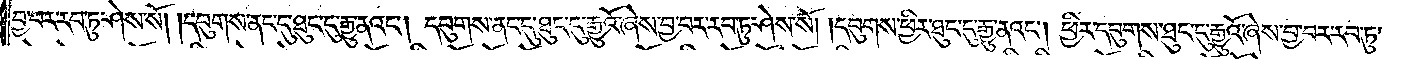བྱ་བར་རབ་ཏུ་ཤེས་སོ། །དབུགས་ནང་དུ་ཐུང་ངུ་རྒྱུ་ནའང༌། དབུགས་ནང་དུ་ཐུང་ངུ་རྒྱུའོ་ཞེས་བྱ་བར་རབ་ཏུ་ཤེས་སོ། །དབུགས་ཕྱིར་ཐུང་ངུ་རྒྱུ་ནའང༌། ཕྱིར་དབུགས་ཐུང་ངུ་རྒྱུའོ་ཞེས་བྱ་བར་རབ་ཏུ་
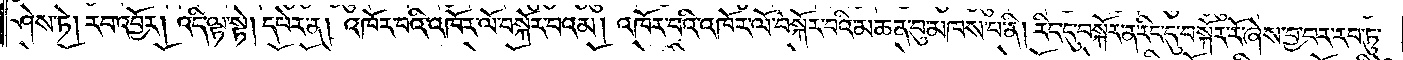ཤེས་ཏེ། རབ་འབྱོར། འདི་ལྟ་སྟེ། དཔེར་ན། འཁོར་བའི་འཁོར་ལོ་བསྐོར་བའམ། འཁོར་བའི་འཁོར་ལོ་བསྐོར་བའི་མཆན་བུ་མཁས་པ་ནི། རིང་དུ་བསྐོར་ན་རིང་དུ་བསྐོར་རོ་ཞེས་བྱ་བར་རབ་ཏུ་
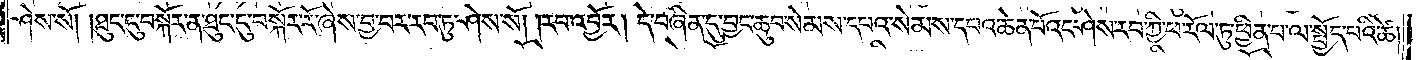ཤེས་སོ། །ཐུང་ངུ་བསྐོར་ན་ཐུང་ངུ་བསྐོར་རོ་ཞེས་བྱ་བར་རབ་ཏུ་ཤེས་སོ། །རབ་འབྱོར། དེ་བཞིན་དུ་བྱང་ཆུབ་སེམས་དཔའ་སེམས་དཔའ་ཆེན་པོའང་ཤེས་རབ་ཀྱི་ཕ་རོལ་ཏུ་ཕྱིན་པ་ལ་སྤྱོད་པའི་ཚེ།
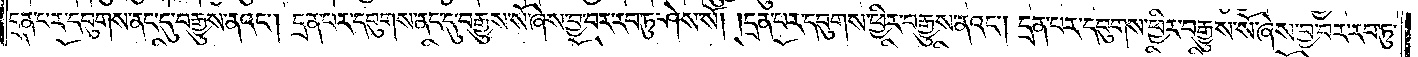དྲན་པར་དབུགས་ནང་དུ་བརྒྱུས་ནའང༌། དྲན་པར་དབུགས་ནང་དུ་བརྒྱུས་སོ་ཞེས་བྱ་བར་རབ་ཏུ་ཤེས་སོ། །དྲན་པར་དབུགས་ཕྱིར་བརྒྱུས་ནའང༌། དྲན་པར་དབུགས་ཕྱིར་བརྒྱུས་སོ་ཞེས་བྱ་བར་རབ་ཏུ་
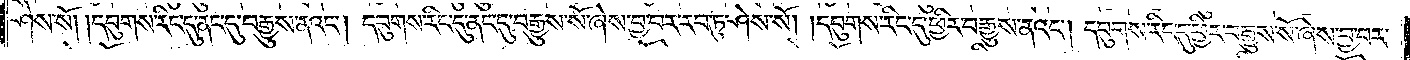ཤེས་སོ། །དབུགས་རིང་དུ་ནང་དུ་བརྒྱུས་ནའང༌། དབུགས་རིང་དུ་ནང་དུ་བརྒྱུས་སོ་ཞེས་བྱ་བར་རབ་ཏུ་ཤེས་སོ། །དབུགས་རིང་དུ་ཕྱིར་བརྒྱུས་ནའང༌། དབུགས་རིང་དུ་ཕྱིར་བརྒྱུས་སོ་ཞེས་བྱ་བར་
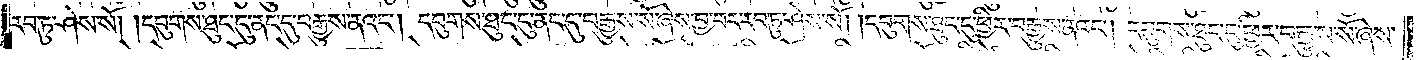རབ་ཏུ་ཤེས་སོ། །དབུགས་ཐུང་ངུ་ནང་དུ་བརྒྱུས་ནའང༌། དབུགས་ཐུང་ངུ་ནང་དུ་བརྒྱུས་སོ་ཞེས་བྱ་བར་རབ་ཏུ་ཤེས་སོ། །དབུགས་ཐུང་ངུ་ཕྱིར་བརྒྱུས་ནའང༌། དབུགས་ཐུང་ངུ་ཕྱིར་བརྒྱུས་སོ་ཞེས་
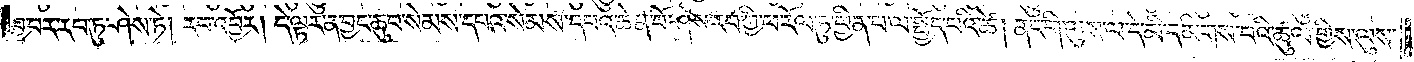བྱ་བར་རབ་ཏུ་ཤེས་ཏེ། རབ་འབྱོར། དེ་ལྟར་ན། བྱང་ཆུབ་སེམས་དཔའ་སེམས་དཔའ་ཆེན་པོ་ཤེས་རབ་ཀྱི་ཕ་རོལ་ཏུ་ཕྱིན་པ་ལ་སྤྱོད་པའི་ཚེ། ནང་གི་ལུས་ལ་དེ་མི་དམིགས་པའི་ཚུལ་གྱིས་ལུས་
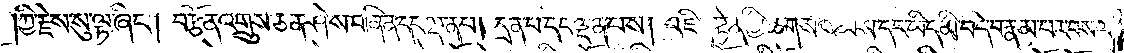ཀྱི་རྗེས་སུ་ལྟ་ཞིང༌། བརྩོན་འགྲུས་ཅན་ཤེས་བཞིན་དང་ལྡན་པ་ངན་པ་དང་ལྡན་པས། འཇིག་རྟེན་གྱི་ཆགས་སེམས་དང་ཡིད་མི་བདེ་བ་རྣམ་པར་བསལ་
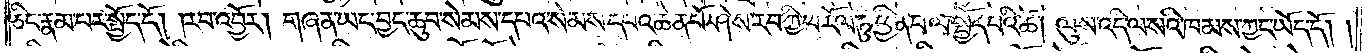ཅིང་རྣམ་པར་སྤྱོད་དོ། །རབ་འབྱོར། གཞན་ཡང་བྱང་ཆུབ་སེམས་དཔའ་སེམས་དཔའ་ཆེན་པོ་ཤེས་རབ་ཀྱི་ཕ་རོལ་ཏུ་ཕྱིན་པ་ལ་སྤྱོད་པའི་ཚེ། ལུས་འདི་ལ་སའི་ཁམས་ཀྱང་ཡོད་དོ། །
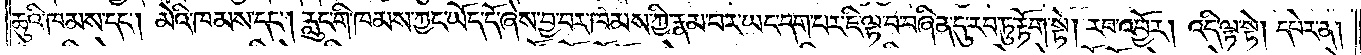ཆུའི་ཁམས་དང༌། མེའི་ཁམས་དང༌། རླུང་གི་ཁམས་ཀྱང་ཡོད་དོ་ཞེས་བྱ་བར་ཁམས་ཀྱི་རྣམ་པར་ཡང་དག་པར་ཇི་ལྟ་བ་བཞིན་དུ་རབ་ཏུ་རྟོག་སྟེ། རབ་འབྱོར། འདི་ལྟ་སྟེ། དཔེར་ན།
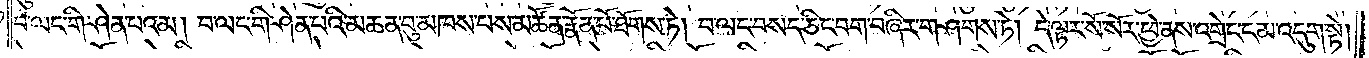བ་ལང་གི་ཤེན་པའམ། བ་ལང་གི་ཤེན་པའི་མཆན་བུ་མཁས་པས་མཚོན་རྣོན་པོ་ཐོགས་ཏེ། བ་ལང་བསད་ཅིང་བག་བཞིར་གཤགས་ཏེ། དེ་ལྟར་སོ་སོར་ཕྱེ་ནས་འགྲེང་ངམ་འདུག་སྟེ།
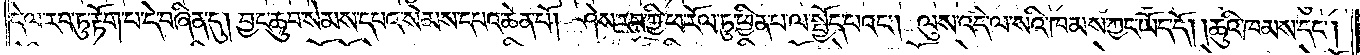དེ་ལ་རབ་ཏུ་རྟོག་པ་དེ་བཞིན་དུ། བྱང་ཆུབ་སེམས་དཔའ་སེམས་དཔའ་ཆེན་པོ། ཤེས་རབ་ཀྱི་ཕ་རོལ་ཏུ་ཕྱིན་པ་ལ་སྤྱོད་པའང༌། ལུས་འདི་ལ་སའི་ཁམས་ཀྱང་ཡོད་དོ། །ཆུའི་ཁམས་དང༌།
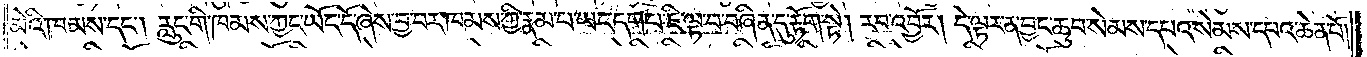མེའི་ཁམས་དང༌། རླུང་གི་ཁམས་ཀྱང་ཡོད་དོ་ཞེས་བྱ་བར་ཁམས་ཀྱི་རྣམ་པ་ཡང་དག་པ་ཇི་ལྟ་བ་བཞིན་དུ་རྟོག་སྟེ། རབ་འབྱོར། དེ་ལྟར་ན་བྱང་ཆུབ་སེམས་དཔའ་སེམས་དཔའ་ཆེན་པོ།
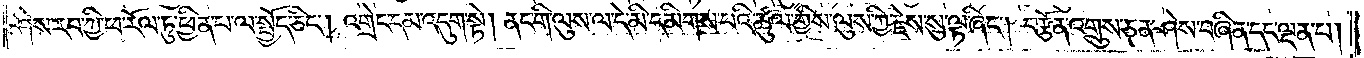ཤེས་རབ་ཀྱི་ཕ་རོལ་ཏུ་ཕྱིན་པ་ལ་སྤྱོད་ཅིང༌། འགྲེང་ངམ་འདུག་སྟེ། ནང་གི་ལུས་ལ་དེ་མི་དམིགས་པའི་ཚུལ་གྱིས་ལུས་ཀྱི་རྗེས་སུ་ལྟ་ཞིང༌། བརྩོན་འགྲུས་ཅན་ཤེས་བཞིན་དང་ལྡན་པ།
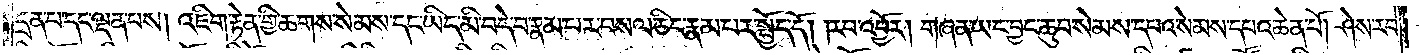དྲན་པ་དང་ལྡན་པས། འཇིག་རྟེན་གྱི་ཆགས་སེམས་དང༌། ཡིད་མི་བདེ་བ་རྣམ་པར་བསལ་ཅིང་རྣམ་པར་སྤྱོད་དོ། །རབ་འབྱོར། གཞན་ཡང་བྱང་ཆུབ་སེམས་དཔའ་སེམས་དཔའ་ཆེན་པོ། ཤེས་རབ་
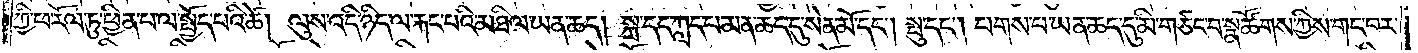ཀྱི་ཕ་རོལ་ཏུ་ཕྱིན་པ་ལ་སྤྱོད་པའི་ཚེ། ལུས་འདི་ཉིད་ལ་རྐང་པའི་མཐིལ་ཡན་ཆད། སྐྲ་དང་ཀླད་པ་མན་ཆད་དུ་སེན་མོ་དང༌། སྤུ་དང༌། པགས་པ་ཡན་ཆད་དུ་མི་གཙང་བ་སྣ་ཚོགས་ཀྱིས་གང་བར་
